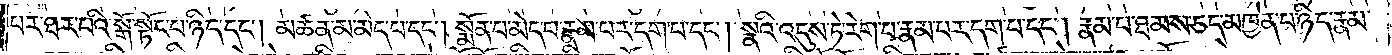པར་ཐར་པའི་སྒོ་སྟོང་པ་ཉིད་དང༌། མཚན་མ་མེད་པ་དང༌། སྨོན་པ་མེད་པ་རྣམ་པར་དག་པ་དང༌། སྣའི་འདུས་ཏེ་རེག་པ་རྣམ་པར་དག་པ་དང༌། རྣམ་པ་ཐམས་ཅད་མཁྱེན་པ་ཉིད་རྣམ་
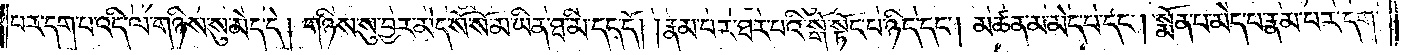པར་དག་པ་འདི་ལ་གཉིས་སུ་མེད་དེ། གཉིས་སུ་བྱར་མེད་སོ་སོ་མ་ཡིན་ཐ་མི་དད་དོ། །རྣམ་པར་ཐར་པའི་སྒོ་སྟོང་པ་ཉིད་དང༌། མཚན་མ་མེད་པ་དང༌། སྨོན་པ་མེད་པ་རྣམ་པར་དག་
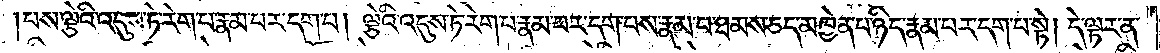པས་ལྕེའི་འདུས་ཏེ་རེག་པ་རྣམ་པར་དག་པ། ལྕེའི་འདུས་ཏེ་རེག་པ་རྣམ་པར་དག་པས་རྣམ་པ་ཐམས་ཅད་མཁྱེན་པ་ཉིད་རྣམ་པར་དག་པ་སྟེ། དེ་ལྟར་ན་
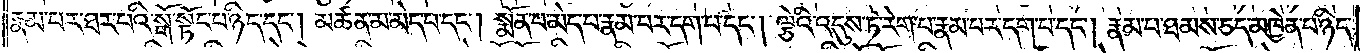རྣམ་པར་ཐར་པའི་སྒོ་སྟོང་པ་ཉིད་དང༌། མཚན་མ་མེད་པ་དང༌། སྨོན་པ་མེད་པ་རྣམ་པར་དག་པ་དང༌། ལྕེའི་འདུས་ཏེ་རེག་པ་རྣམ་པར་དག་པ་དང༌། རྣམ་པ་ཐམས་ཅད་མཁྱེན་པ་ཉིད་
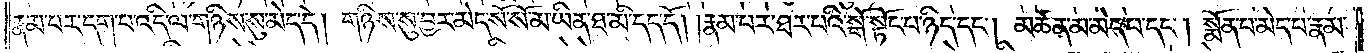རྣམ་པར་དག་པ་འདི་ལ་གཉིས་སུ་མེད་དེ། གཉིས་སུ་བྱར་མེད་སོ་སོ་མ་ཡིན་ཐ་མི་དད་དོ། །རྣམ་པར་ཐར་པའི་སྒོ་སྟོང་པ་ཉིད་དང༌། མཚན་མ་མེད་པ་དང༌། སྨོན་པ་མེད་པ་རྣམ་
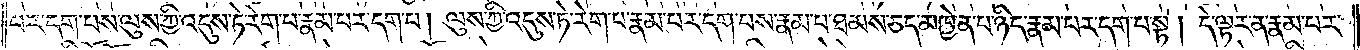པར་དག་པས་ལུས་ཀྱི་འདུས་ཏེ་རེག་པ་རྣམ་པར་དག་པ། ལུས་ཀྱི་འདུས་ཏེ་རེག་པ་རྣམ་པར་དག་པས་རྣམ་པ་ཐམས་ཅད་མཁྱེན་པ་ཉིད་རྣམ་པར་དག་པ་སྟེ། དེ་ལྟར་ན་རྣམ་པར་
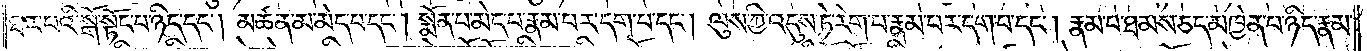ཐར་པའི་སྒོ་སྟོང་པ་ཉིད་དང༌། མཚན་མ་མེད་པ་དང༌། སྨོན་པ་མེད་པ་རྣམ་པར་དག་པ་དང༌། ལུས་ཀྱི་འདུས་ཏེ་རེག་པ་རྣམ་པར་དག་པ་དང༌། རྣམ་པ་ཐམས་ཅད་མཁྱེན་པ་ཉིད་རྣམ་
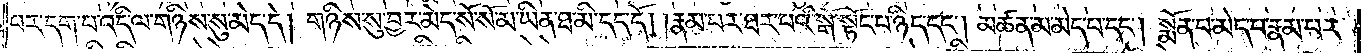པར་དག་པ་འདི་ལ་གཉིས་སུ་མེད་དེ། གཉིས་སུ་བྱར་མེད་སོ་སོ་མ་ཡིན་ཐ་མི་དད་དོ། །རྣམ་པར་ཐར་པའི་སྒོ་སྟོང་པ་ཉིད་དང༌། མཚན་མ་མེད་པ་དང༌། སྨོན་པ་མེད་པ་རྣམ་པར་
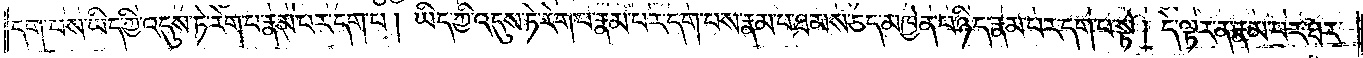དག་པས་ཡིད་ཀྱི་འདུས་ཏེ་རེག་པ་རྣམ་པར་དག་པ། ཡིད་ཀྱི་འདུས་ཏེ་རེག་པ་རྣམ་པར་དག་པས་རྣམ་པ་ཐམས་ཅད་མཁྱེན་པ་ཉིད་རྣམ་པར་དག་པ་སྟེ། དེ་ལྟར་ན་རྣམ་པར་ཐར་
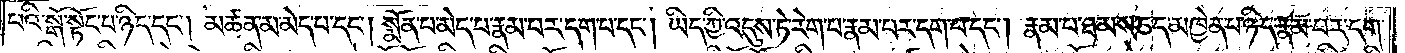པའི་སྒོ་སྟོང་པ་ཉིད་དང༌། མཚན་མ་མེད་པ་དང༌། སྨོན་པ་མེད་པ་རྣམ་པར་དག་པ་དང༌། ཡིད་ཀྱི་འདུས་ཏེ་རེག་པ་རྣམ་པར་དག་པ་དང༌། རྣམ་པ་ཐམས་ཅད་མཁྱེན་པ་ཉིད་རྣམ་པར་དག་
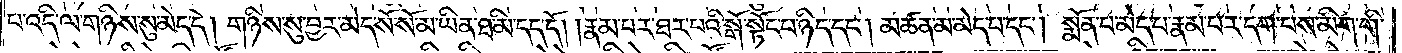པ་འདི་ལ་གཉིས་སུ་མེད་དེ། གཉིས་སུ་བྱར་མེད་སོ་སོ་མ་ཡིན་ཐ་མི་དད་དོ། །རྣམ་པར་ཐར་པའི་སྒོ་སྟོང་པ་ཉིད་དང༌། མཚན་མ་མེད་པ་དང༌། སྨོན་པ་མེད་པ་རྣམ་པར་དག་པས་མིག་གི་
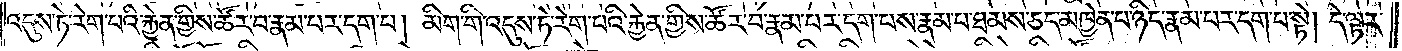འདུས་ཏེ་རེག་པའི་རྐྱེན་གྱིས་ཚོར་བ་རྣམ་པར་དག་པ། མིག་གི་འདུས་ཏེ་རེག་པའི་རྐྱེན་གྱིས་ཚོར་བ་རྣམ་པར་དག་པས་རྣམ་པ་ཐམས་ཅད་མཁྱེན་པ་ཉིད་རྣམ་པར་དག་པ་སྟེ། དེ་ལྟར་
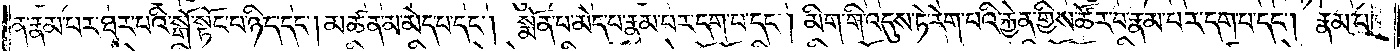ན་རྣམ་པར་ཐར་པའི་སྒོ་སྟོང་པ་ཉིད་དང༌། མཚན་མ་མེད་པ་དང༌། སྨོན་པ་མེད་པ་རྣམ་པར་དག་པ་དང༌། མིག་གི་འདུས་ཏེ་རེག་པའི་རྐྱེན་གྱིས་ཚོར་བ་རྣམ་པར་དག་པ་དང༌། རྣམ་པ་
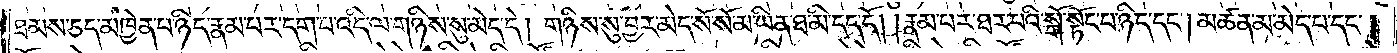ཐམས་ཅད་མཁྱེན་པ་ཉིད་རྣམ་པར་དག་པ་འདི་ལ་གཉིས་སུ་མེད་དེ། གཉིས་སུ་བྱར་མེད་སོ་སོ་མ་ཡིན་ཐ་མི་དད་དོ། །རྣམ་པར་ཐར་པའི་སྒོ་སྟོང་པ་ཉིད་དང༌། མཚན་མ་མེད་པ་དང༌།
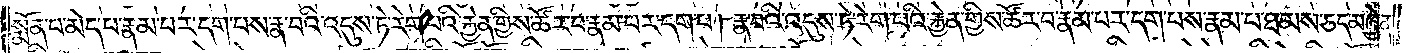སྨོན་པ་མེད་པ་རྣམ་པར་དག་པས་རྣ་བའི་འདུས་ཏེ་རེག་པའི་རྐྱེན་གྱིས་ཚོར་བ་རྣམ་པར་དག་པ། རྣ་བའི་འདུས་ཏེ་རེག་པའི་རྐྱེན་གྱིས་ཚོར་བ་རྣམ་པར་དག་པས་རྣམ་པ་ཐམས་ཅད་མཁྱེན་
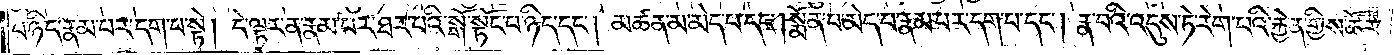པ་ཉིད་རྣམ་པར་དག་པ་སྟེ། དེ་ལྟར་ན་རྣམ་པར་ཐར་པའི་སྒོ་སྟོང་པ་ཉིད་དང༌། མཚན་མ་མེད་པ་དང༌། སྨོན་པ་མེད་པ་རྣམ་པར་དག་པ་དང༌། རྣ་བའི་འདུས་ཏེ་རེག་པའི་རྐྱེན་གྱིས་ཚོར་
